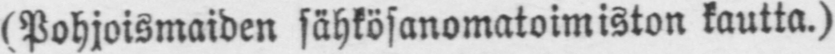(Pohjoismaiden sähkösanomatoimiston kautta.)
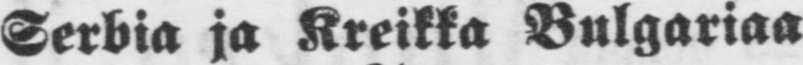Serbia ja Kreikka Bulgariaa
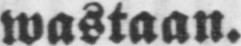wastaan.
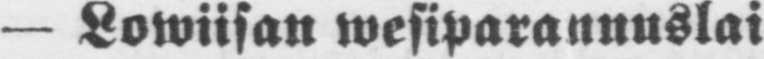— Lowiisan wesiparannuslai-
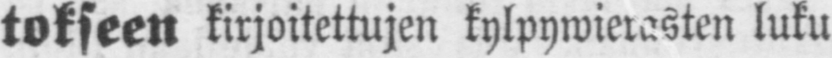tokseen kirjoitettujen kylpywierasten luku
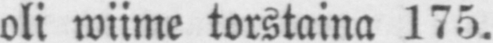oli wiime torstaina 175.
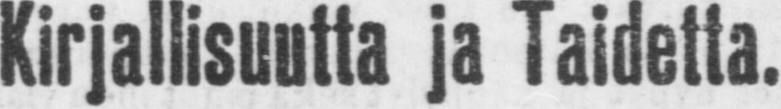Kirjallisuutta ja Taidetta.
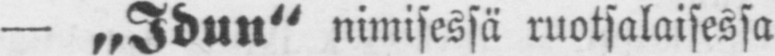— „Idun" nimisessä ruotsalaisessa
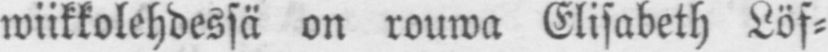wiikkolehdessä on rouwa Elisabeth Löf-
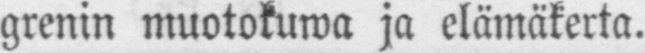grenin muotokuwa ja elämäkerta.
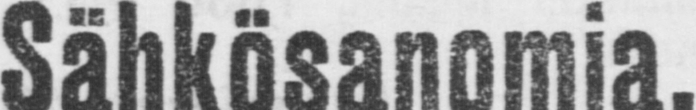S ä hkösanomia.
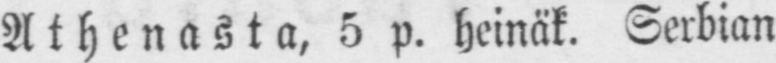Athenasta, 5 p. heinät. Serbian
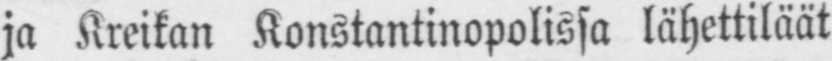ja Kreikan Konstantinopolissa lähettiläät
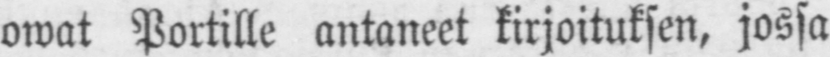owat Portille antaneet kirjoituksen, jossa
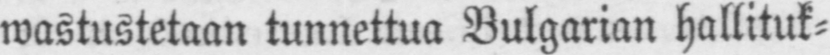wastustetaan tunnettua Bulgarian hallituk-
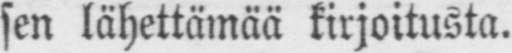sen lähettämää kirjoitusta.
